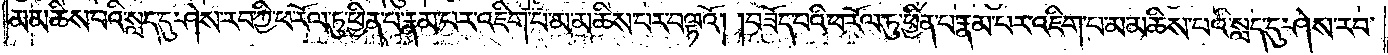མ་མཆིས་པའི་སླད་དུ་ཤེས་རབ་ཀྱི་ཕ་རོལ་ཏུ་ཕྱིན་པ་རྣམ་པར་འཇིག་པ་མ་མཆིས་པར་བལྟའོ། །བཟོད་པའི་ཕ་རོལ་ཏུ་ཕྱིན་པ་རྣམ་པར་འཇིག་པ་མ་མཆིས་པའི་སླད་དུ་ཤེས་རབ་
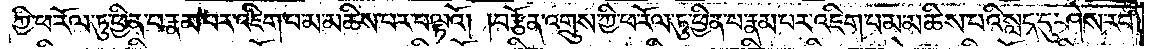ཀྱི་ཕ་རོལ་ཏུ་ཕྱིན་པ་རྣམ་པར་འཇིག་པ་མ་མཆིས་པར་བལྟའོ། །བརྩོན་འགྲུས་ཀྱི་ཕ་རོལ་ཏུ་ཕྱིན་པ་རྣམ་པར་འཇིག་པ་མ་མཆིས་པའི་སླད་དུ་ཤེས་རབ་
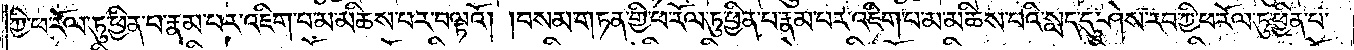ཀྱི་ཕ་རོལ་ཏུ་ཕྱིན་པ་རྣམ་པར་འཇིག་པ་མ་མཆིས་པར་བལྟའོ། །བསམ་གཏན་གྱི་ཕ་རོལ་ཏུ་ཕྱིན་པ་རྣམ་པར་འཇིག་པ་མ་མཆིས་པའི་སླད་དུ་ཤེས་རབ་ཀྱི་ཕ་རོལ་ཏུ་ཕྱིན་པ་
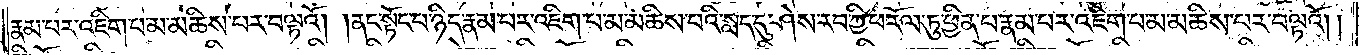རྣམ་པར་འཇིག་པ་མ་མཆིས་པར་བལྟའོ། །ནང་སྟོང་པ་ཉིད་རྣམ་པར་འཇིག་པ་མ་མཆིས་པའི་སླད་དུ་ཤེས་རབ་ཀྱི་ཕ་རོལ་ཏུ་ཕྱིན་པ་རྣམ་པར་འཇིག་པ་མ་མཆིས་པར་བལྟའོ། །
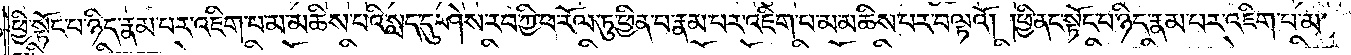ཕྱི་སྟོང་པ་ཉིད་རྣམ་པར་འཇིག་པ་མ་མཆིས་པའི་སླད་དུ་ཤེས་རབ་ཀྱི་ཕ་རོལ་ཏུ་ཕྱིན་པ་རྣམ་པར་འཇིག་པ་མ་མཆིས་པར་བལྟའོ། །ཕྱི་ནང་སྟོང་པ་ཉིད་རྣམ་པར་འཇིག་པ་མ་
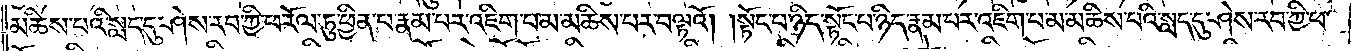མཆིས་པའི་སླད་དུ་ཤེས་རབ་ཀྱི་ཕ་རོལ་ཏུ་ཕྱིན་པ་རྣམ་པར་འཇིག་པ་མ་མཆིས་པར་བལྟའོ། །སྟོང་པ་ཉིད་སྟོང་པ་ཉིད་རྣམ་པར་འཇིག་པ་མ་མཆིས་པའི་སླད་དུ་ཤེས་རབ་ཀྱི་ཕ་
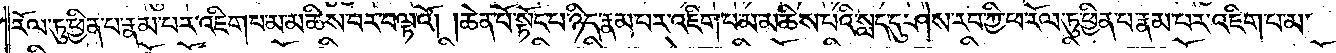རོལ་ཏུ་ཕྱིན་པ་རྣམ་པར་འཇིག་པ་མ་མཆིས་པར་བལྟའོ། །ཆེན་པོ་སྟོང་པ་ཉིད་རྣམ་པར་འཇིག་པ་མ་མཆིས་པའི་སླད་དུ་ཤེས་རབ་ཀྱི་ཕ་རོལ་ཏུ་ཕྱིན་པ་རྣམ་པར་འཇིག་པ་མ་
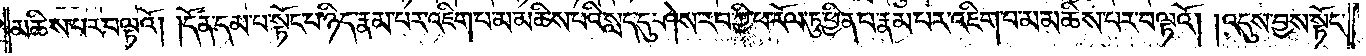མཆིས་པར་བལྟའོ། །དོན་དམ་པ་སྟོང་པ་ཉིད་རྣམ་པར་འཇིག་པ་མ་མཆིས་པའི་སླད་དུ་ཤེས་རབ་ཀྱི་ཕ་རོལ་ཏུ་ཕྱིན་པ་རྣམ་པར་འཇིག་པ་མ་མཆིས་པར་བལྟའོ། །འདུས་བྱས་སྟོང་
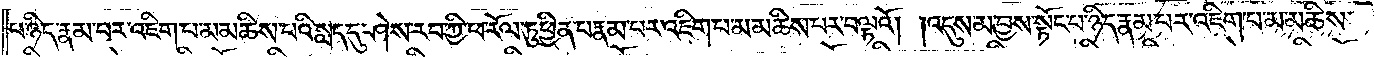པ་ཉིད་རྣམ་པར་འཇིག་པ་མ་མཆིས་པའི་སླད་དུ་ཤེས་རབ་ཀྱི་ཕ་རོལ་ཏུ་ཕྱིན་པ་རྣམ་པར་འཇིག་པ་མ་མཆིས་པར་བལྟའོ། །འདུས་མ་བྱས་སྟོང་པ་ཉིད་རྣམ་པར་འཇིག་པ་མ་མཆིས་
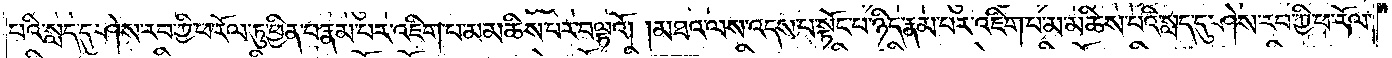པའི་སླད་དུ་ཤེས་རབ་ཀྱི་ཕ་རོལ་ཏུ་ཕྱིན་པ་རྣམ་པར་འཇིག་པ་མ་མཆིས་པར་བལྟའོ། །མཐའ་ལས་འདས་པ་སྟོང་པ་ཉིད་རྣམ་པར་འཇིག་པ་མ་མཆིས་པའི་སླད་དུ་ཤེས་རབ་ཀྱི་ཕ་རོལ་
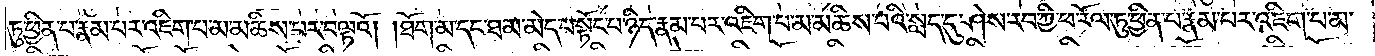ཏུ་ཕྱིན་པ་རྣམ་པར་འཇིག་པ་མ་མཆིས་པར་བལྟའོ། །ཐོག་མ་དང་ཐ་མ་མེད་པ་སྟོང་པ་ཉིད་རྣམ་པར་འཇིག་པ་མ་མཆིས་པའི་སླད་དུ་ཤེས་རབ་ཀྱི་ཕ་རོལ་ཏུ་ཕྱིན་པ་རྣམ་པར་འཇིག་པ་མ་
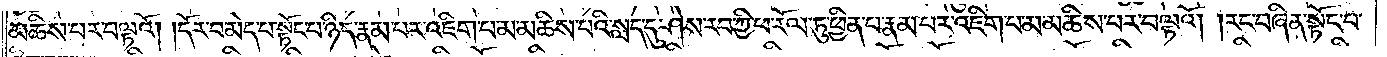མཆིས་པར་བལྟའོ། །དོར་བ་མེད་པ་སྟོང་པ་ཉིད་རྣམ་པར་འཇིག་པ་མ་མཆིས་པའི་སླད་དུ་ཤེས་རབ་ཀྱི་ཕ་རོལ་ཏུ་ཕྱིན་པ་རྣམ་པར་འཇིག་པ་མ་མཆིས་པར་བལྟའོ། །རང་བཞིན་སྟོང་པ་
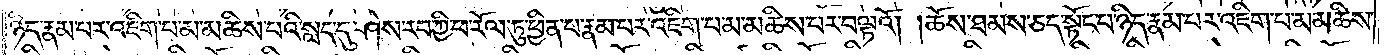ཉིད་རྣམ་པར་འཇིག་པ་མ་མཆིས་པའི་སླད་དུ་ཤེས་རབ་ཀྱི་ཕ་རོལ་ཏུ་ཕྱིན་པ་རྣམ་པར་འཇིག་པ་མ་མཆིས་པར་བལྟའོ། །ཆོས་ཐམས་ཅད་སྟོང་པ་ཉིད་རྣམ་པར་འཇིག་པ་མ་མཆིས་
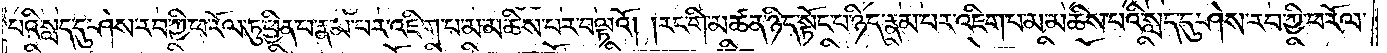པའི་སླད་དུ་ཤེས་རབ་ཀྱི་ཕ་རོལ་ཏུ་ཕྱིན་པ་རྣམ་པར་འཇིག་པ་མ་མཆིས་པར་བལྟའོ། །རང་གི་མཚན་ཉིད་སྟོང་པ་ཉིད་རྣམ་པར་འཇིག་པ་མ་མཆིས་པའི་སླད་དུ་ཤེས་རབ་ཀྱི་ཕ་རོལ་
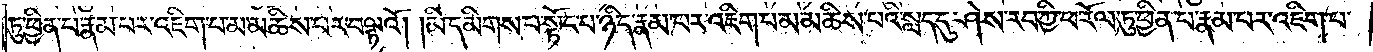ཏུ་ཕྱིན་པ་རྣམ་པར་འཇིག་པ་མ་མཆིས་པར་བལྟའོ། །མི་དམིགས་པ་སྟོང་པ་ཉིད་རྣམ་པར་འཇིག་པ་མ་མཆིས་པའི་སླད་དུ་ཤེས་རབ་ཀྱི་ཕ་རོལ་ཏུ་ཕྱིན་པ་རྣམ་པར་འཇིག་པ་
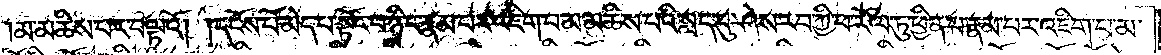མ་མཆིས་པར་བལྟའོ། །དངོས་པོ་མེད་པ་སྟོང་པ་ཉིད་རྣམ་པར་འཇིག་པ་མ་མཆིས་པའི་སླད་དུ་ཤེས་རབ་ཀྱི་ཕ་རོལ་ཏུ་ཕྱིན་པ་རྣམ་པར་འཇིག་པ་མ་
